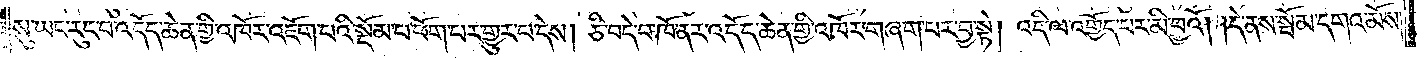སུ་ཡང་རུང་བ་འདོད་ཆེན་གྱི་འཁོར་འཇོག་པའི་སྡོམ་པ་ཕོག་པར་གྱུར་པ་དེས། ཅི་བདེ་བ་ཁོ་ནར་འདོད་ཆེན་གྱི་འཁོར་གཞག་པར་བྱ་སྟེ། འདི་ལ་འགྱོད་པར་མི་བྱའོ། །དེ་ནས་སྦོམ་དགའ་མོས།
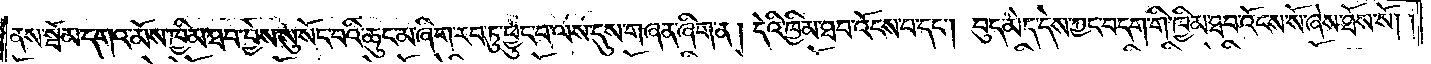ནས་སྦོམ་དགའ་མོས་ཁྱིམ་ཐབ་བྱེས་སུ་སོང་བའི་ཆུང་མ་ཞིག་རབ་ཏུ་ཕྱུང་བ་ལས་དུས་གཞན་ཞིག་ན། དེའི་ཁྱིམ་ཐབ་འོངས་པ་དང༌། བུད་མེད་དེས་ཀྱང་བདག་གི་ཁྱིམ་ཐབ་འོངས་སོ་ཞེས་ཐོས་སོ། །
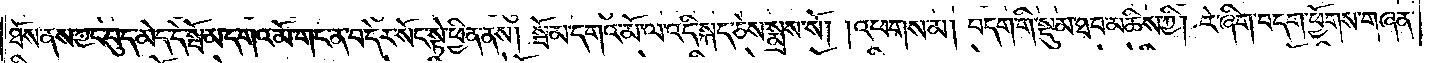ཐོས་ནས་ཀྱང་བུད་མེད་དེ་སྦོམ་དགའ་མོ་གང་ན་བ་དེར་སོང་སྟེ་ཕྱིན་ནས། སྦོམ་དགའ་མོ་ལ་འདི་སྐད་ཅེས་སྨྲས་སོ། །འཕགས་མ། བདག་གི་སྡུམ་ཐབ་མཆིས་ཀྱི། རེ་ཞིག་བདག་ཕྱོགས་གཞན་
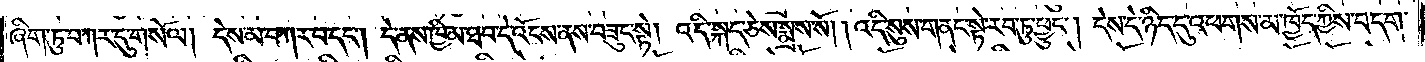ཞིག་ཏུ་བཀར་དུ་གསོལ། དེས་མ་བཀར་བ་དང༌། དེ་ནས་ཁྱིམ་ཐབ་དེ་འོངས་ནས་བཟུང་སྟེ། འདི་སྐད་ཅེས་སྨྲས་སོ། །འདི་སུས་གནང་སྟེ་རབ་ཏུ་ཕྱུང༌། དེས་དེ་ཉིད་དུ་འཕགས་མ་ཁྱོད་ཀྱིས་བདག་
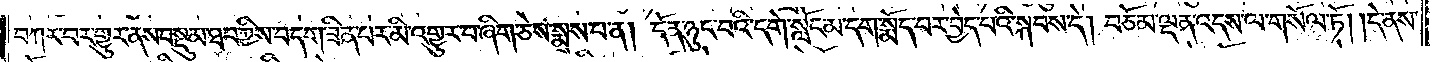བཀར་བར་གྱུར་ནས་བསྡུམ་ཐབ་ཀྱིས་བདག་ཟིན་པར་མི་འགྱུར་བ་ཞིག་ཅེས་སྨྲས་པ་ན། དོན་ཉུང་བའི་དགེ་སློང་མ་དག་སྨོད་པར་བྱེད་པའི་སྐབས་དེ། བཅོམ་ལྡན་འདས་ལ་གསོལ་ཏོ། །དེ་ནས་
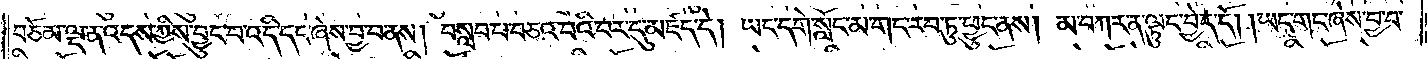བཅོམ་ལྡན་འདས་ཀྱིས་བྱུང་བ་འདི་དང་ཞེས་བྱ་བ་ནས། བསླབ་པ་བཅའ་བའི་བར་དུ་མཛད་དེ། ཡང་དགེ་སློང་མ་གང་རབ་ཏུ་ཕྱུང་ནས། མ་བཀར་ན་ལྟུང་བྱེད་དོ། །ཡང་གང་ཞེས་བྱ་བ་
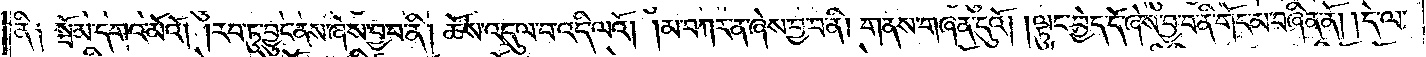ནི། སྦོམ་དགའ་མོའོ། །རབ་ཏུ་བྱུང་ནས་ཞེས་བྱ་བ་ནི། ཆོས་འདུལ་བ་འདི་ལའོ། །མ་བཀར་ན་ཞེས་བྱ་བ་ནི། གནས་གཞན་དུའོ། །ལྟུང་བྱེད་དོ་ཞེས་བྱ་བ་ནི་གོང་མ་བཞིན་ནོ། །དེ་ལ་
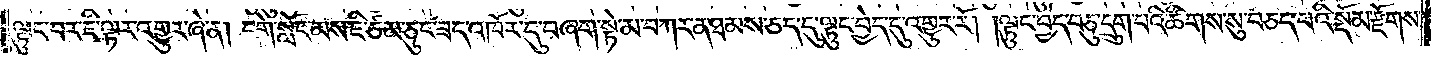ལྟུང་བར་ཇི་ལྟར་འགྱུར་ཞེ་ན། དགེ་སློང་མས་ཇི་ཙམ་ཅུང་ཟད་འཁོར་དུ་བཞག་སྟེ་མ་བཀར་ན་ཐམས་ཅད་དུ་ལྟུང་བྱེད་དུ་འགྱུར་རོ། །ལྟུང་བྱེད་བཅུ་དྲུག་པའི་ཚིགས་སུ་བཅད་པའི་སྡོམ་རྫོགས་
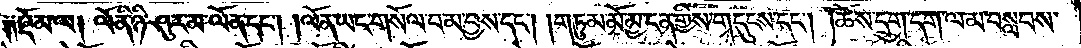༑༑སྡོམ་ལ། ལོ་ནི་ཉི་ཤུར་མ་ལོན་དང༌། །ལོན་ཡང་གསོལ་བ་མ་བྱས་དང༌། །གཏུམ་མོ་མྱ་ངན་གྱིས་གདུངས་དང༌། །ཆོས་དྲུག་དག་ལ་མ་བསླབས་
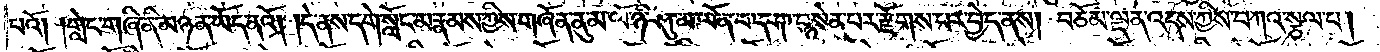པའོ། །གླེང་གཞི་ནི་མཉན་ཡོད་ནའོ། །དེ་ནས་དགེ་སློང་མ་རྣམས་ཀྱིས་གཞོན་ནུ་མ་ལོ་ཉི་ཤུ་མ་ལོན་པ་དག་བསྙེན་པར་རྫོགས་པར་བྱེད་ནས། བཅོམ་ལྡན་འདས་ཀྱིས་བཀའ་སྩལ་པ།
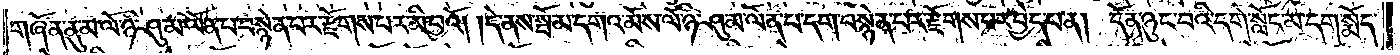གཞོན་ནུ་མ་ལོ་ཉི་ཤུ་མ་ལོན་པ་བསྙེན་པར་རྫོགས་པར་མི་བྱའོ། །དེ་ནས་སྦོམ་དགའ་མོས་ལོ་ཉི་ཤུ་མ་ལོན་པ་དག་བསྙེན་པར་རྫོགས་པར་བྱེད་པ་ན། དོན་ཉུང་བའི་དགེ་སློང་མ་དག་སྨོད་
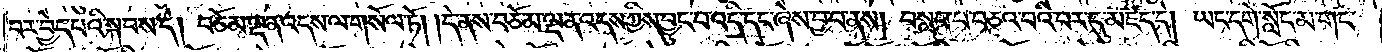པར་བྱེད་པའི་སྐབས་དེ། བཅོམ་ལྡན་འདས་ལ་གསོལ་ཏོ། །དེ་ནས་བཅོམ་ལྡན་འདས་ཀྱིས་བྱུང་བ་འདི་དང་ཞེས་བྱ་བ་ནས། བསླབ་པ་བཅའ་བའི་བར་དུ་མཛད་དེ། ཡང་དགེ་སློང་མ་གང་
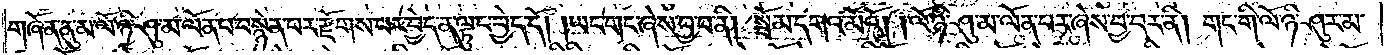གཞོན་ནུ་མ་ལོ་ཉི་ཤུ་མ་ལོན་པ་བསྙེན་པར་རྫོགས་པར་བྱེད་ན་ལྟུང་བྱེད་དོ། །ཡང་གང་ཞེས་བྱ་བ་ནི། སྦོམ་དགའ་མོའོ། །ལོ་ཉི་ཤུ་མ་ལོན་པར་ཞེས་བྱ་བར་ནི། གང་གི་ལོ་ཉི་ཤུར་མ་
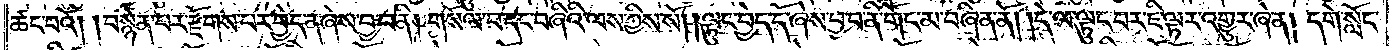ཚང་བའོ། །བསྙེན་པར་རྫོགས་པར་བྱེད་ན་ཞེས་བྱ་བ་ནི། གསོལ་བ་དང་བཞིའི་ལས་ཀྱིས་སོ། །ལྟུང་བྱེད་དོ་ཞེས་བྱ་བ་ནི་གོང་མ་བཞིན་ནོ། །དེ་ལ་ལྟུང་པར་ཇི་ལྟར་འགྱུར་ཞེ་ན། དགེ་སློང་
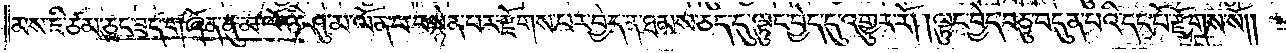མས་ཇི་ཙམ་ཅུང་ཟད་གཞོན་ནུ་མ་ལོ་ཉི་ཤུ་མ་ལོན་པ་བསྙེན་པར་རྫོགས་པར་བྱེད་ན་ཐམས་ཅད་དུ་ལྟུང་བྱེད་དུ་འགྱུར་རོ། །ལྟུང་བྱེད་བཅུ་བདུན་པའི་དང་པོ་རྫོགས་སོ༎
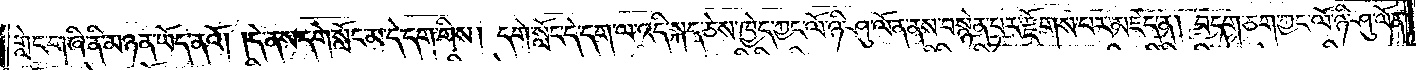གློང་གཞི་ནི་མཉན་ཡོད་ནའོ། །དེ་ནས་དགེ་སློང་མ་དེ་དག་གིས། དགེ་སློང་དེ་དག་ལ་འདི་སྐད་ཅེས་ཁྱེད་ཀྱང་ལོ་ཉི་ཤུ་ལོན་ནས་བསྙེན་པར་རྫོགས་པར་མཛད་ན། བདག་ཅག་ཀྱང་ལོ་ཉི་ཤུ་ལོན་
